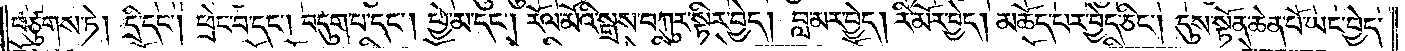བཙུགས་ཏེ། དྲི་དང༌། ཕྲེང་བ་དང༌། བདུག་པ་དང༌། ཕྱེ་མ་དང༌། རོལ་མོའི་སྒྲས་བཀུར་སྟིར་བྱེད། བླ་མར་བྱེད། རི་མོར་བྱེད། མཆོད་པར་བྱེད་ཅིང༌། དུས་སྟོན་ཆེན་པོ་ཡང་བྱེད་
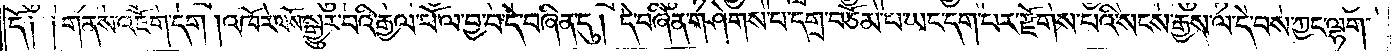དོ༑ ༑གནས་འཇོག་དག །འཁོར་ལོས་སྒྱུར་བའི་རྒྱལ་པོ་ལ་བྱ་བ་དེ་བཞིན་དུ། དེ་བཞིན་གཤེགས་པ་དགྲ་བཅོམ་པ་ཡང་དག་པར་རྫོགས་པའི་སངས་རྒྱས་ལ་དེ་བས་ཀྱང་ལྷག་
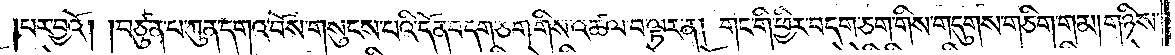།པར་བྱའོ། །བཙུན་པ་ཀུན་དགའ་བོས་གསུངས་པའི་དོན་བདག་ཅག་གིས་འཚལ་བ་ལྟར་ན། གང་གི་ཕྱིར་བདག་ཅག་གིས་གདུགས་གཅིག་གམ། གཉིས་
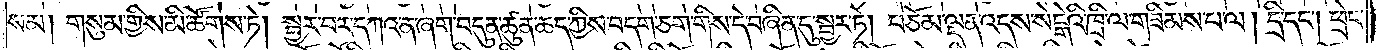སམ། གསུམ་གྱིས་མི་ཚོགས་ཏེ། སྦྱར་བར་དཀའ་ན་ཞག་བདུན་ཚུན་ཆད་ཀྱིས་བདག་ཅག་གིས་དེ་བཞིན་དུ་སྦྱར་ཏོ། བཅོམ་ལྡན་འདས་སེངྒེའི་ཁྲི་ལ་གཟིམས་པ་ལ། དྲི་དང༌། ཕྲེང་
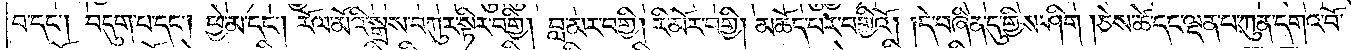བ་དང༌། བདུག་པ་དང༌། ཕྱེ་མ་དང༌། རོལ་མོའི་སྒྲས་བཀུར་སྟིར་བགྱི། བླ་མར་བགྱི། རི་མོར་བགྱི། མཆོད་པར་བགྱིའོ། །དེ་བཞིན་དུ་གྱིས་ཤིག །ཅེས་ཚེ་དང་ལྡན་པ་ཀུན་དགའ་བོ་
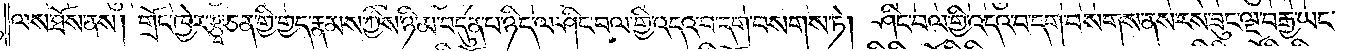ལས་ཐོས་ནས། གྲོང་ཁྱེར་རྩྭ་ཅན་གྱི་གྱད་རྣམས་ཀྱིས་ཉི་མ་བདུན་པ་ཉིད་ལ་ཤིང་བལ་གྱི་འདའ་བ་དག་བསགས་ཏེ། ཤིང་བལ་གྱི་འདའ་བ་དག་བསགས་ནས་རས་ཟུང་ལྔ་བརྒྱ་ཡང་
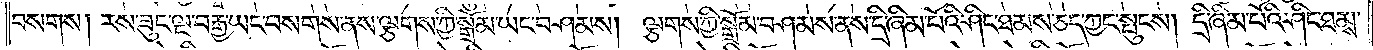བསགས། རས་ཟུང་ལྔ་བརྒྱ་ཡང་བསགས་ནས་ལྕགས་ཀྱི་སྒྲོམ་ཡང་བཤམས། ལྕགས་ཀྱི་སྒྲོམ་བཤམས་ནས་དྲི་ཞིམ་པོའི་ཤིང་ཐམས་ཅད་ཀྱང་སྤུངས། དྲི་ཞིམ་པོའི་ཤིང་ཐམས་
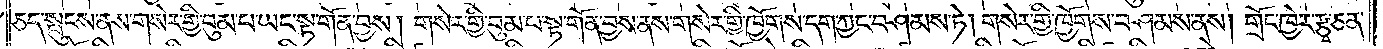ཅད་སྤུངས་ནས་གསེར་གྱི་བུམ་པ་ཡང་སྟ་གོན་བྱས། གསེར་གྱི་བུམ་པ་སྟ་གོན་བྱས་ནས་གསེར་གྱི་ཁྱོགས་དག་ཀྱང་བཤམས་ཏེ། གསེར་གྱི་ཁྱོགས་བཤམས་ནས། གྲོང་ཁྱེར་རྩྭ་ཅན་
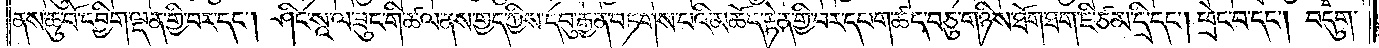ནས་ཆུ་བོ་དབྱིག་ལྡན་གྱི་བར་དང༌། ཤིང་སཱ་ལ་ཟུང་གི་ཚལ་ནས་གྱད་ཀྱིས་དབུ་རྒྱན་བཏགས་པའི་མཆོད་རྟེན་གྱི་བར་དཔག་ཚད་བཅུ་གཉིས་ཐོག་ཐག་ཇི་ཙམ་དྲི་དང༌། ཕྲེང་བ་དང༌། བདུག་
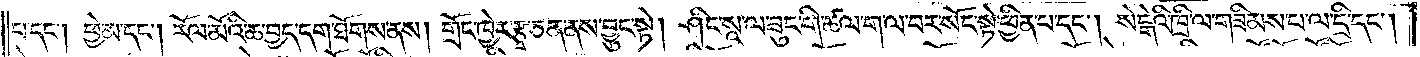པ་དང༌། ཕྱེ་མ་དང༌། རོལ་མོའི་ཆ་བྱད་དག་ཐོགས་ནས། གྲོང་ཁྱེར་རྩྭ་ཅན་ནས་བྱུང་སྟེ། ཤིང་སཱ་ལ་ཟུང་གི་ཚལ་ག་ལ་བར་སོང་སྟེ་ཕྱིན་པ་དང༌། སེངྒེའི་ཁྲི་ལ་གཟིམས་པ་ལ་དྲི་དང༌།
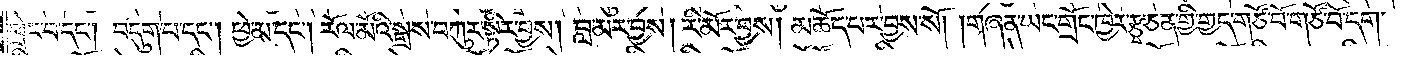ཕྲེང་བ་དང༌། བདུག་པ་དང༌། ཕྱེ་མ་དང༌། རོལ་མོའི་སྒྲས་བཀུར་སྟིར་བྱས། བླ་མར་བྱས། རི་མོར་བྱས། མཆོད་པར་བྱས་སོ། །གཞན་ཡང་གྲོང་ཁྱེར་རྩྭ་ཅན་གྱི་གྱད་གཙོ་བོ་གཙོ་བོ་དག་
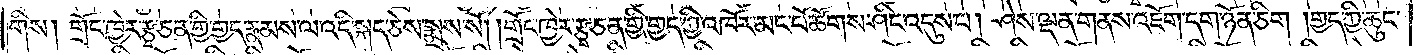གིས། གྲོང་ཁྱེར་རྩྭ་ཅན་གྱི་གྱད་རྣམས་ལ་འདི་སྐད་ཅེས་སྨྲས་སོ། །གྲོང་ཁྱེར་རྩྭ་ཅན་གྱི་གྱད་ཀྱི་འཁོར་མང་པོ་ཚོགས་ཤིང་འདུས་པ། ཤེས་ལྡན་གནས་འཇོག་དག་ཉོན་ཅིག །གྱད་ཀྱི་ཆུང་
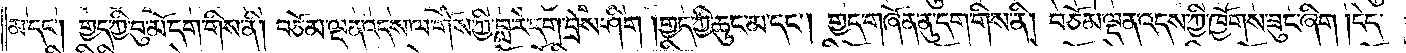མ་དང༌། གྱད་ཀྱི་བུ་མོ་དག་གིས་ནི། བཅོམ་ལྡན་འདས་ལ་གོས་ཀྱི་བླ་རེ་དག་བྲེས་ཤིག །གྱད་ཀྱི་ཆུང་མ་དང༌། གྱད་གཞོན་ནུ་དག་གིས་ནི། བཅོམ་ལྡན་འདས་ཀྱི་ཁྱོགས་ཟུང་ཞིག །ངེད་
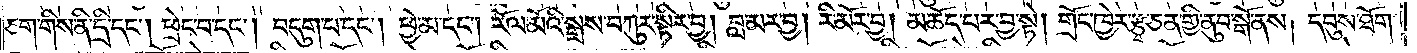ཅག་གིས་ནི་དྲི་དང༌། ཕྲེང་བ་དང༌། བདུག་པ་དང༌། ཕྱེ་མ་དང༌། རོལ་མོའི་སྒྲས་བཀུར་སྟིར་བྱ། བླ་མར་བྱ། རི་མོར་བྱ། མཆོད་པར་བྱ་སྟེ། གྲོང་ཁྱེར་རྩྭ་ཅན་གྱི་ནུབ་སྒོ་ནས། དབུས་ཐོག་
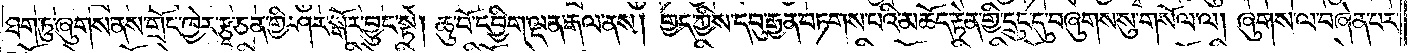ཐག་ཏུ་ཞུགས་ནས་གྲོང་ཁྱེར་རྩྭ་ཅན་གྱི་ཤར་སྒོར་བྱུང་སྟེ། ཆུ་བོ་དབྱིག་ལྡན་རྒལ་ནས། གྱད་ཀྱིས་དབུ་རྒྱན་བཏགས་པའི་མཆོད་རྟེན་གྱི་དྲུང་དུ་བཞུགས་སུ་གསོལ་ལ། ཞུགས་ལ་བཞེན་པར་
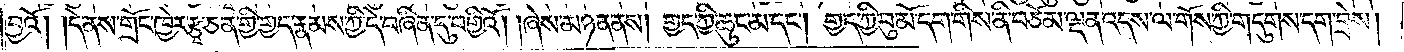བྱའོ། །དེ་ནས་གྲོང་ཁྱེར་རྩྭ་ཅན་གྱི་གྱད་རྣམས་ཀྱི་དེ་བཞིན་དུ་བགྱིའོ། །ཞེས་མཉན་ནས། གྱད་ཀྱི་ཆུང་མ་དང༌། གྱད་ཀྱི་བུ་མོ་དག་གིས་ནི་བཅོམ་ལྡན་འདས་ལ་གོས་ཀྱི་གདུགས་དག་བྲེས།
